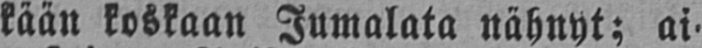kään koskaan Jumalata nähnyt; ai-
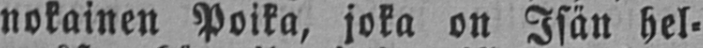nokainen Poika, joka on Isän hel-
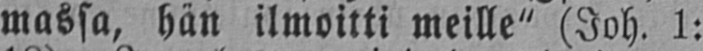massa, hän ilmoitti meille" (Joh.1:
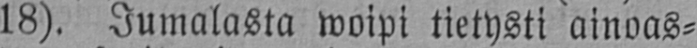18). Jumalasta woipi tietysti ainoas-
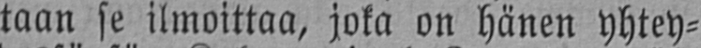taan se ilmoittaa, joka on hänen yhtey-
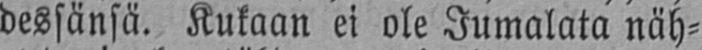dessänsä. Kukaan ei ole Jumalata näh-
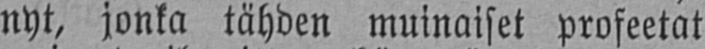nyt, jonka tähden muinaiset profeetat
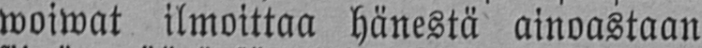woiwat ilmoittaa hänestä ainoastaan
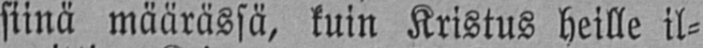siinä määrässä, kuin Kristus heille il-
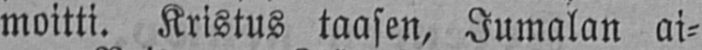moitti. Kristus taasen, Jumalan ai-
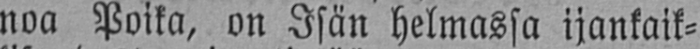noa Poika, on Isän helmassa ijankaik-
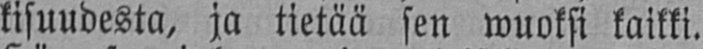kisuudesta, ja tietää sen wuoksi kaikki.
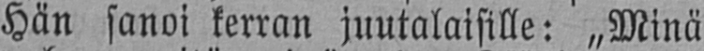Hän sanoi kerran juutalaisille: Minä
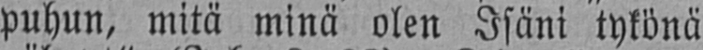puhun, mitä minä olen Isäni tykönä
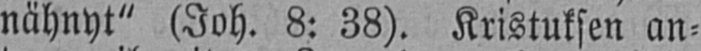nähnyt" (Joh. 8: 38). Kristuksen an-
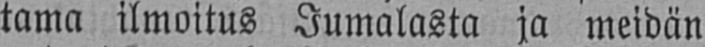tama ilmoitus Jumalasta ja meidän
